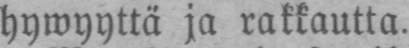hywyyttä ja rakkautta.
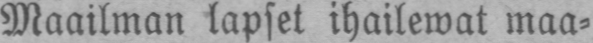Maailman lapset ihailewat maa-
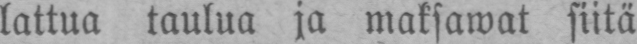lattua taulua ja maksawat siitä
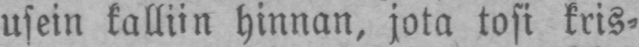usein kalliin hinnan, jota tosi kris-
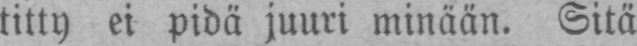titty ei pidä juuri minään. Sitä
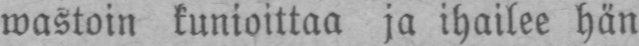wastoin kunioittaa ja ihailee hän
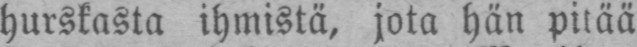hurskasta ihmistä, jota hän pitää
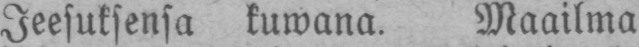Jeesuksensa kuwana. Maailma
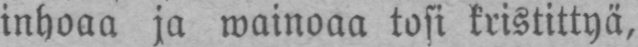inhoaa ja wainoaa tosi kristittyä,
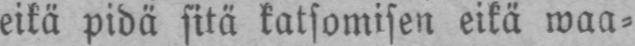eikä pidä sitä katsomisen eikä waa-
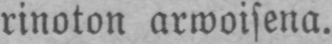rinoton arwoisena.
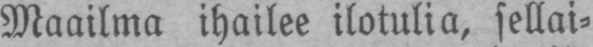Maailma ihailee ilotulia, sellai-
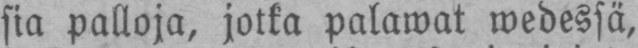sia palloja, jotka palawat wedessä,
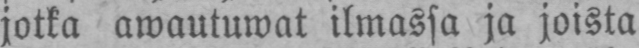jotka awautuwat ilmassa ja joista
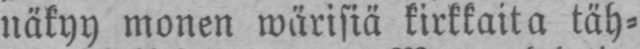näkyy monen wärisiä kirkkaita täh-
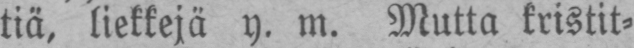tiä, liekkejä y. m. Mutta kristit-
